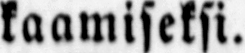kaamiseksi.
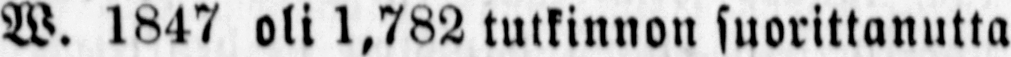W. 1847 oli 1,782 tutkinnon suorittanutta
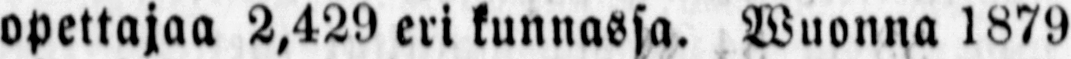opettajaa 2,429 eri kunnassa. Wuonna 1879
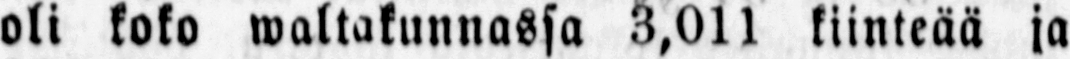oli kolo waltakunnassa 3,011 kiinteää ja
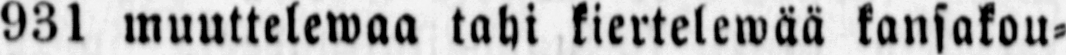931 muuttelewaa tahi kiertelewää kansakou-
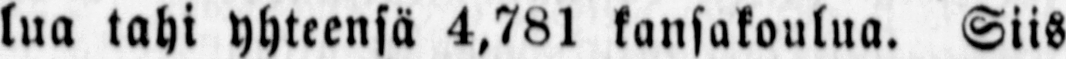lua tahi yhteensä 4,781 kansakoulua. Siis
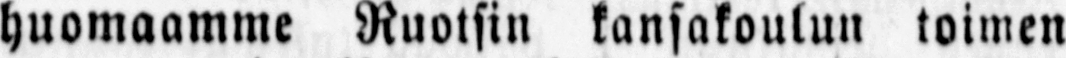huomaamme Ruotsin kansakoulun toimen
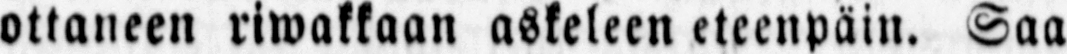ottaneen riwakkaan askeleen eteenpäin. Saa
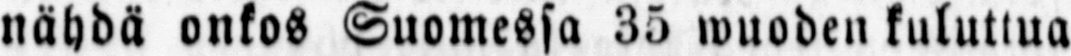nähdä onkos Suomessa 35 wuoden kuluttua
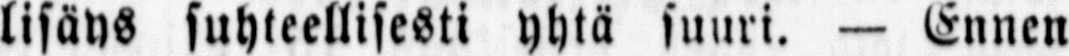lisäys suhteellisesti yhtä suuri. — Ennen
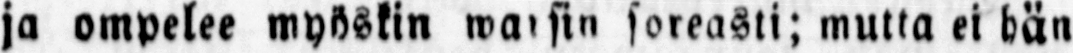ja ompelee myöskin warsin soreasti; mutta ei hän
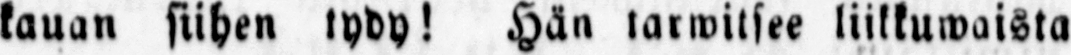kauan siihen tydy! Hän tarwitsee liikkuwaista
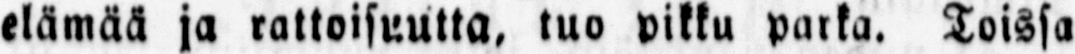elämää ja rattoisuutta, tuo pikku parka. Toissa
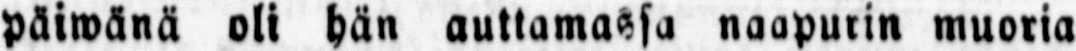päiwänä oli hän auttamassa naapurin muoria
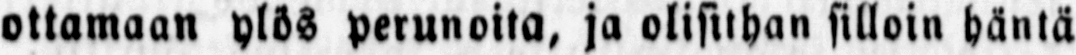ottamaan ylös perunoita, ja olisithan silloin häntä
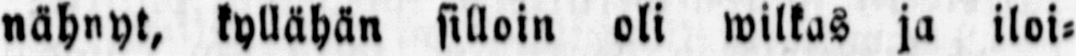nähnyt, kyllähän silloin oli wilkas ja iloi-
